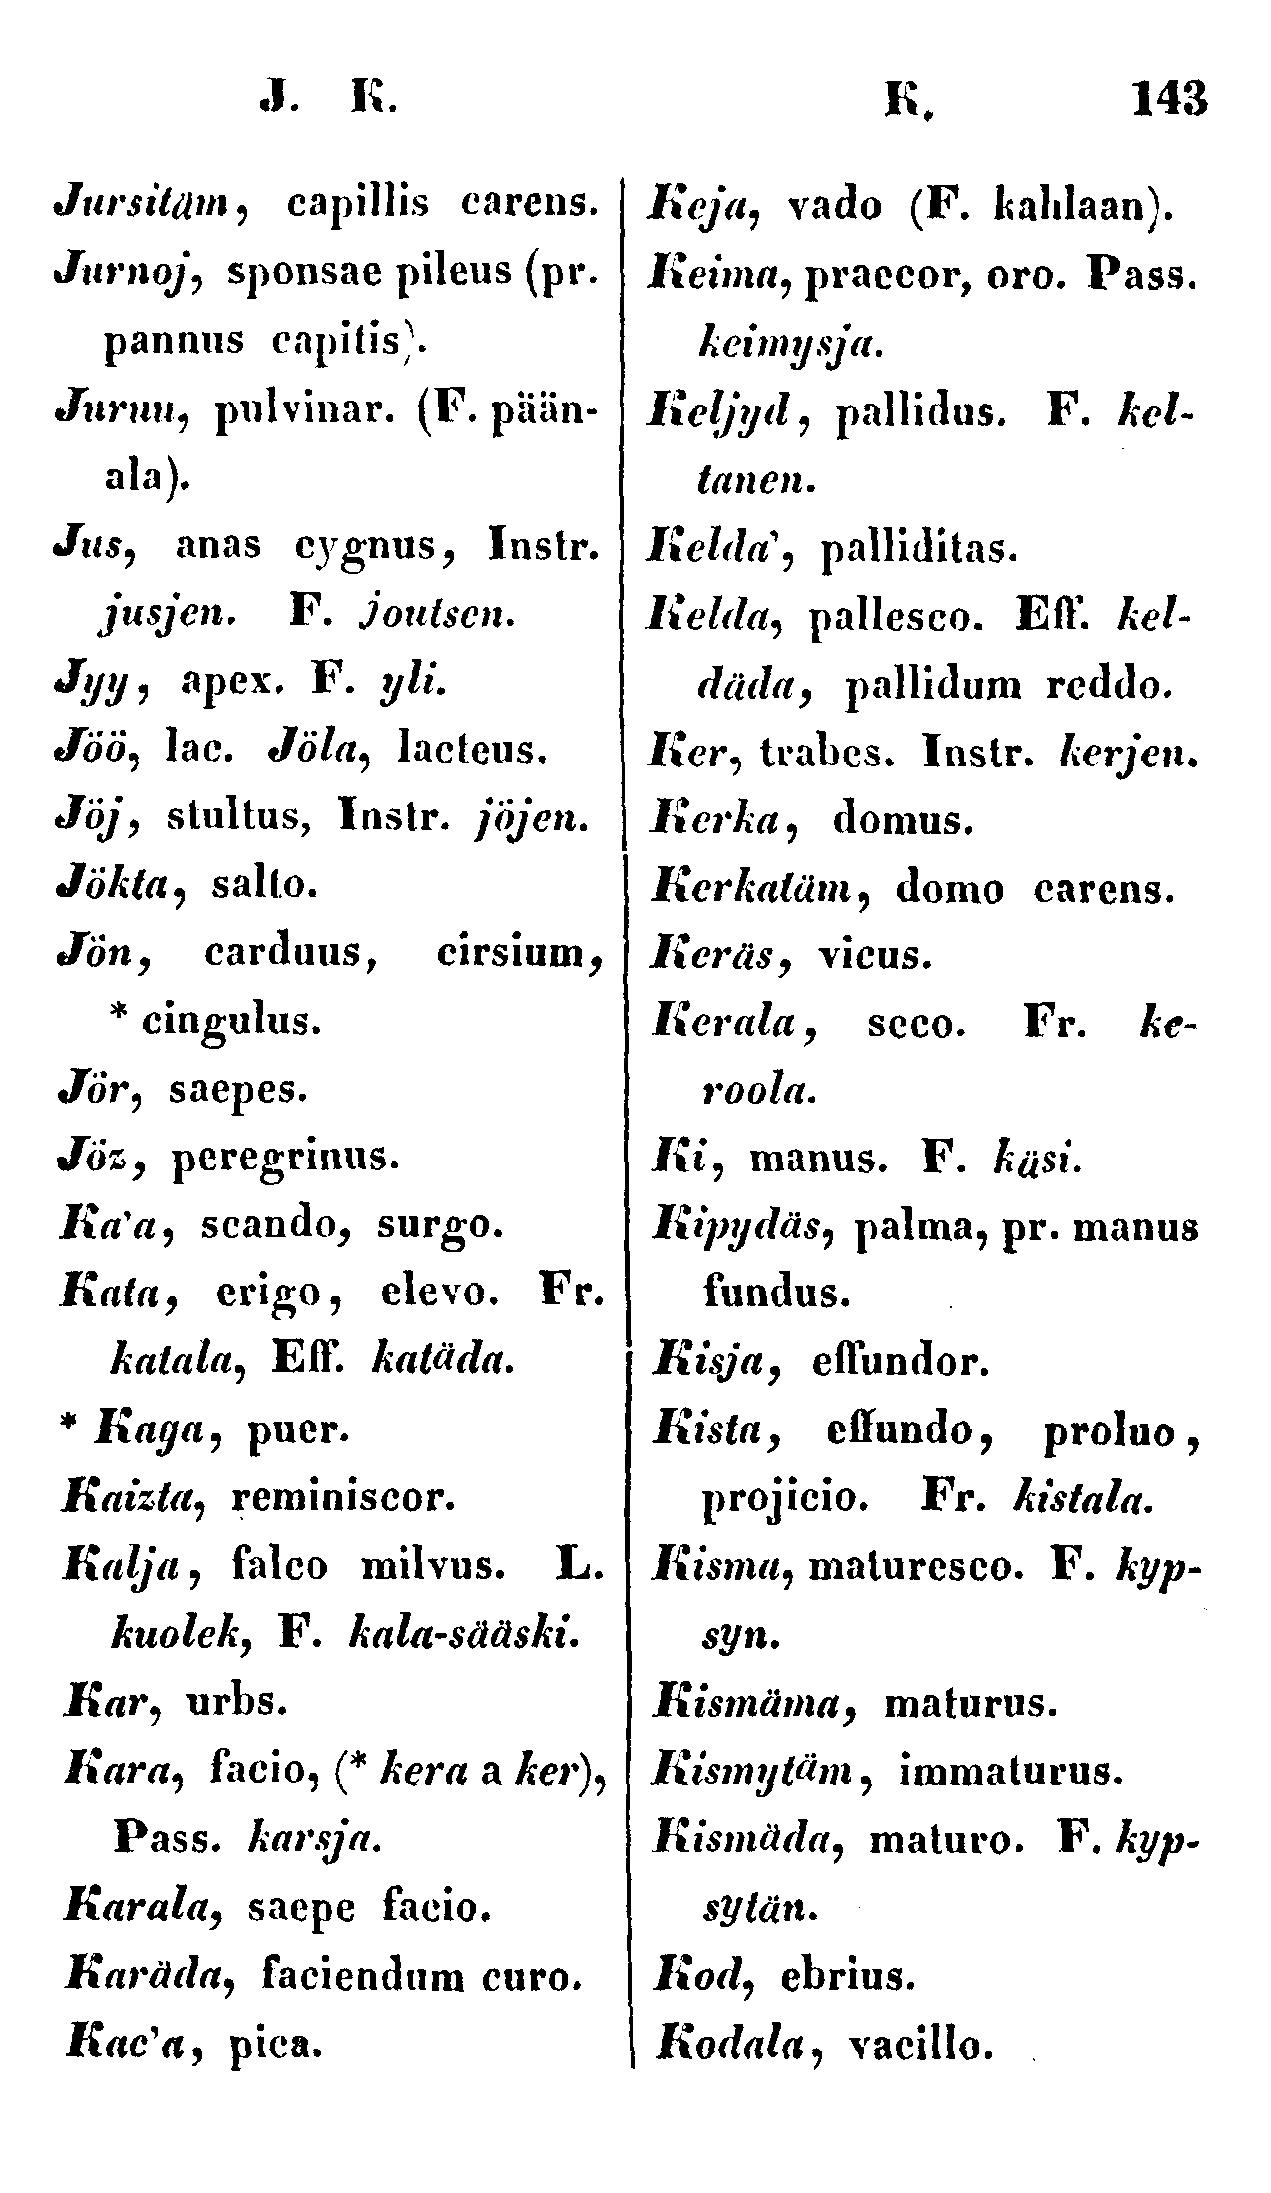J. K.
143
Jursitäm, capillis carens.
Jurnoj, sponsae pileus (pr.
pannus capitis.
Juruu, pulvinar. (F. pään-
ala).
Jus, anas cygnus, Instr.
jusjen. F. Joutsen.
Jyy, apex. F. yli.
Jöö, lac. Jöla, lacteus.
Jöj, stultus, Instr. jöjen.
Jökta, salto.
Jön, carduus, cirsium,
* cingulus.
Jör saepes.
Jöz, peregrinus.
Ka'a, scando, surgo.
Kata, erigo, elevo. Fr.
katala, Eff. katäda.
*Kaga, puer.
Kaizta, reminiscor.
Kalja, falco milvus. L.
kuolek, F. kala-sääski.
Kar, urbs.
Rara, facio, (*kera a ker),
Pass. karsja.
Karala, saepe facio.
Karäda, faciendum curo.
Kac'a, pica.
K.
Keja, vado (F. kahlaan).
Keima, praecor, oro. Pass.
keimysja.
Keljyd, pallidus. F. kel-
tanen.
Kelda', palliditas.
Kelda, pallesco. Eff. kel-
däda, pallidum reddo.
Ker, trabes. Instr. kerjen.
Kerka, domus.
Kerkatäm, domo carens.
Keräs, vicus.
Kerala, seco. Fr. ke-
roola.
Ki, manus. F. käsi.
Kipydäs, palma, pr. manus
fundus.
Kisja, effundor.
Kista, effundo, proluo,
projicio. Fr. kistala.
Kisma, maturesco. F. kyp-
syn.
Kismäma, maturus.
Kismytäm, immaturus.
Kismäda, maturo. F. kyp-
sytän.
Kod, ebrius.
Kodala, vacillo.
